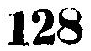128
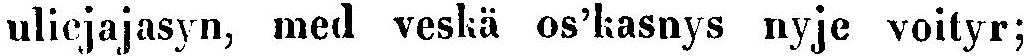ulicjajasyn, med veskä os'kasnys nyje voityr;
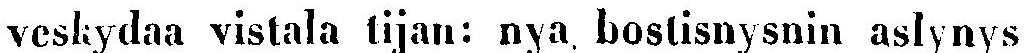veskydaa vistala tijan: nya bostisnysnin aslynys
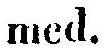med.
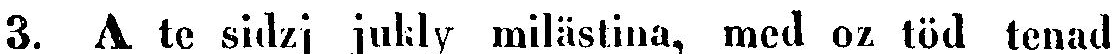3. A te sidzj jukly milästina, med oz töd tenad
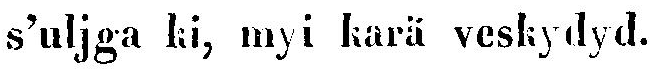s'uljga ki, myi karä veskydyd.
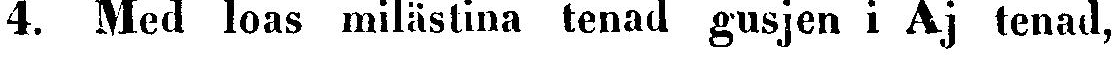4. Med loas milästina tenad gusjen i Aj tenad,
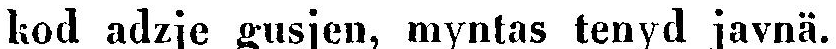kod adzje gusjen, myntas tenyd javnä.
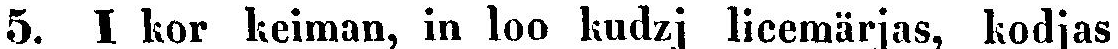5. I kor keiman, in loo kudzj licemärjas, kodjas
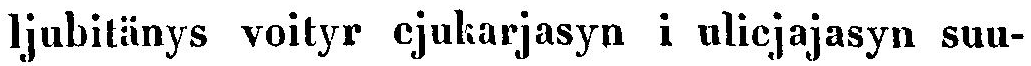ljubitänys voityr cjukarjasyn i ulicjajasyn suu-
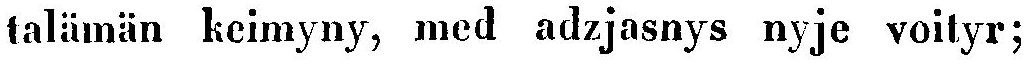talämän keimyny, med adzjasnys nyje voityr;
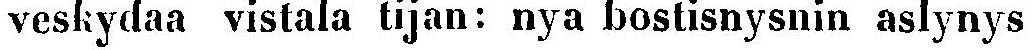veskydaa vistala tijan: nya bostisnysnin aslynys
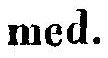med.
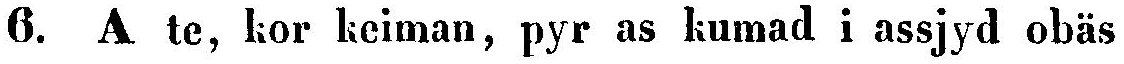6. A te, kor keiman, pyr as kumad i assjyd obäs
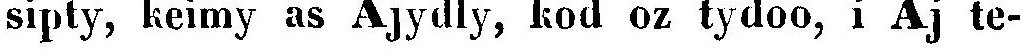sipty, keimy as Ajydly, kod oz tydoo, i Aj te-
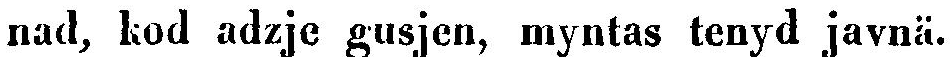nad, kod adzje gusjen, myntas tenyd javnä.
